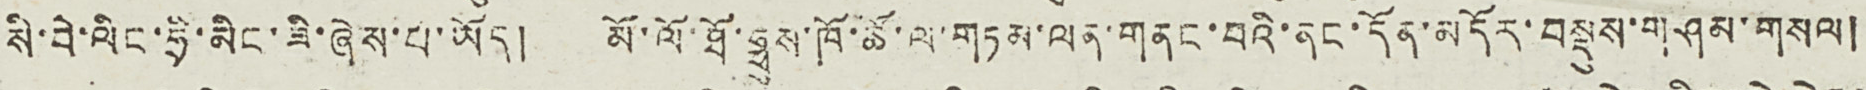སི་བི་ལིང་ཧྲི་མིང་ཟི་ཞེས་པ་ཡོད། མོ་ལོ་ཐོ་ཧྥུས་ཁོ་ཚོ་ལ་གཏམ་ལན་གནང་བའི་ནང་དོན་མདོར་བསྡུས་གཤམ་གསལ།
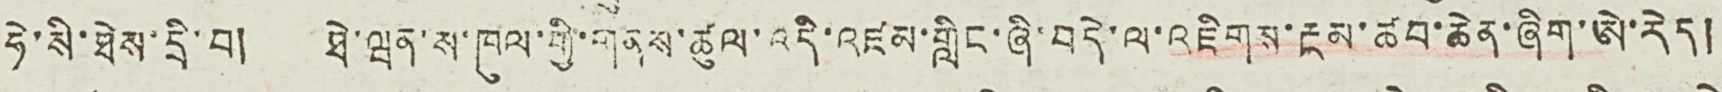ཧེ་སི་ཐེས་དྲི་བ། ཐེ་ཝན་ས་ཁུལ་གྱི་གནས་ཚུལ་འདི་འཛམ་གླིང་ཞི་བདེ་ལ་འཇིགས་རྔམ་ཚབ་ཆེན་ཞིག་ཨེ་རེད།
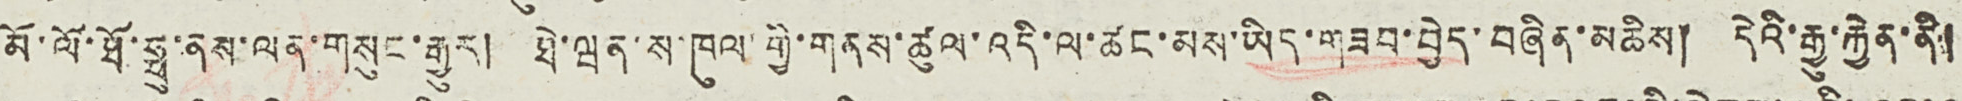མོ་ལོ་ཐོ་ཧྥུ་ནས་ལན་གསུང་རྒྱུར། ཐེ་ཝན་ས་ཁུལ་གྱི་གནས་ཚུལ་འདི་ལ་ཚང་མས་ཡིད་གཟབ་བྱེད་བཞིན་མཆིས། དེའི་རྒྱུ་རྐྱེན་ནི།
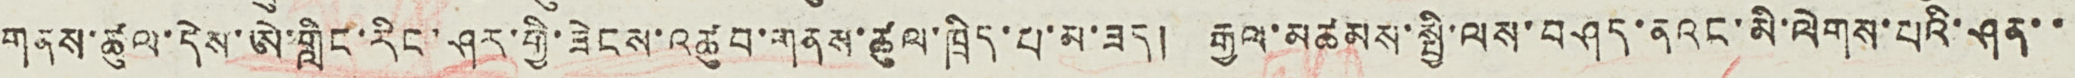གནས་ཚུལ་དེས་ཨེ་གླིང་རིང་ཤར་གྱི་ཟེངས་འཚུབ་གནས་ཚུལ་ཁྲིད་པ་མ་ཟད། རྒྱལ་མཚམས་སྤྱི་ལས་བཤད་ནའང་མི་ལེགས་པའི་ཤན་་
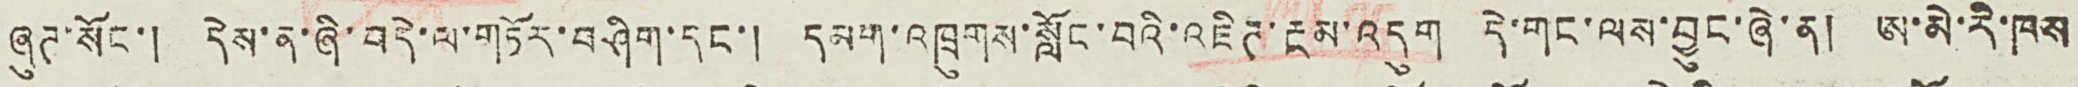ཞུཊ་སོང་། དེས་ན་ཞི་བདེ་ལ་གཏོར་བཤིག་དང་། དམག་འཁྲུགས་སློང་བའི་འཇིཊ་རྔམ་འདུག དེ་གང་ལས་བྱུང་ཞེ་ན། ཨ་མེ་རི་ཁས
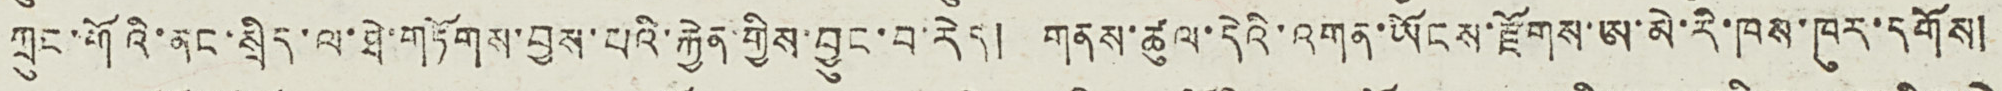ཀྲུང་གོའི་ནང་སྲིད་ལ་ཐེ་གཏོགས་བྱས་པའི་རྐྱེན་གྱིས་བྱུང་བ་རེད། གནས་ཚུལ་དེའི་འགན་ཡོངས་རྫོགས་ཨ་མེ་རི་ཁས་ཁུར་དགོས།
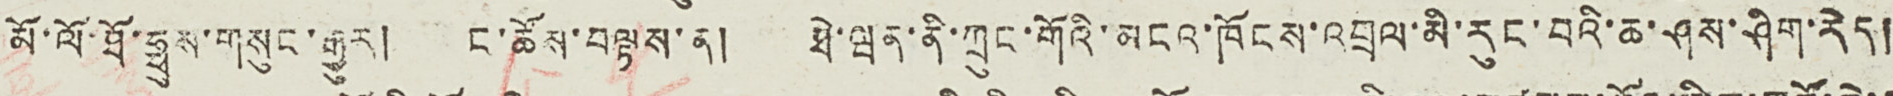མོ་ལོ་ཐོ་ཧྥུས་གསུང་རྒྱུར། ང་ཚོས་བལྟས་ན། ཐེ་ཝན་ནི་ཀྲུང་གོའི་མངའ་ཁོངས་འབྲལ་མི་རུང་བའི་ཆ་ཤས་ཤིག་རེད།
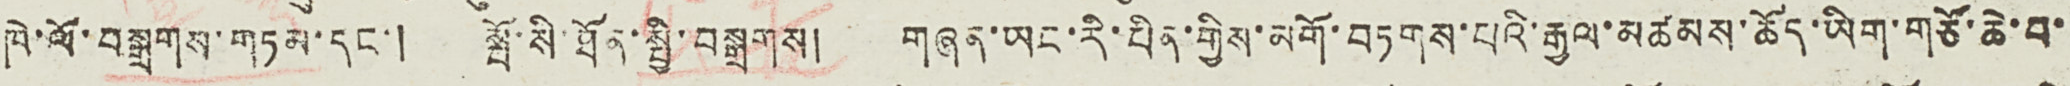ཁེ་ལོ་བསྒྲགས་གཏམ་དང་། སྤོ་སི་ཐོན་སྤྱི་བསྒྲགས། གཞན་ཡང་རི་པིན་གྱིས་མགོ་བཏགས་པའི་རྒྱལ་མཚམས་ཆོད་ཡིག་གཙོ་ཆེ་བ་
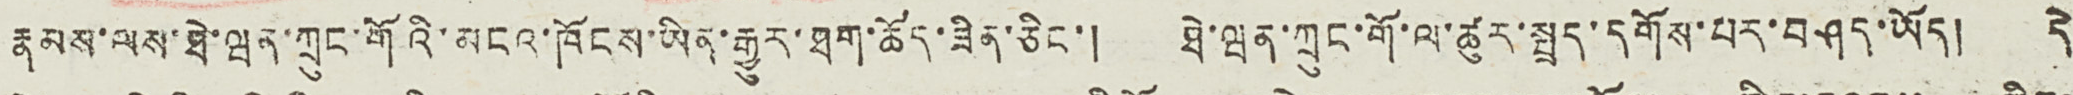རྣམས་ལས་ཐེ་ཝན་ཀྲུང་གོའི་མངའ་ཁོངས་ཡིན་རྒྱུར་ཐག་ཆོད་ཟིན་ཅིང་། ཐེ་ཝན་ཀྲུང་གོ་ལ་ཚུལ་སྤྲད་དགོས་པར་བཤད་ཡོད། དེ
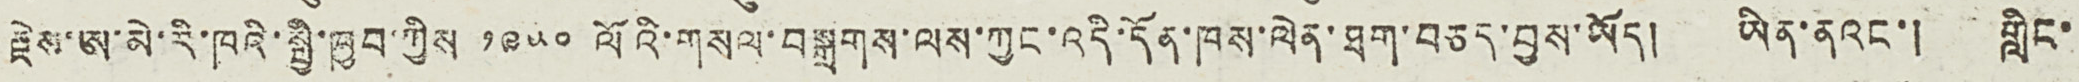རྗེས་ཨ་མེ་རི་ཁའི་སྤྱི་ཁྱབ་ཀྱིས་ ༡༩༥༠ ལོའི་གསལ་བསྒྲགས་ལས་ཀྱང་འདི་དོན་ཁས་ལེན་ཐག་བཅད་བྱས་ཡོད། ཡིན་ནའང་། གླིང་
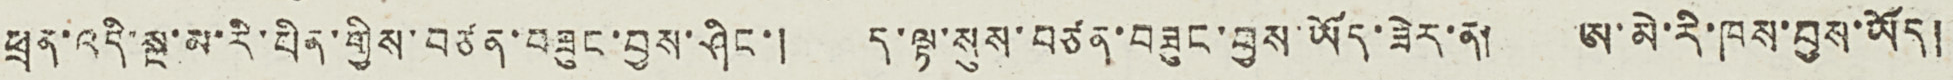ཕྲན་འདི་སྔ་མ་རི་པིན་གྱིས་བཙན་བཟུང་བྱས་ཤིང་། ད་ལྟ་སུས་བཙན་བཟུང་བྱས་ཡོད་ཟེར་ན། ཨ་མེ་རི་ཁས་བྱས་ཡོད།
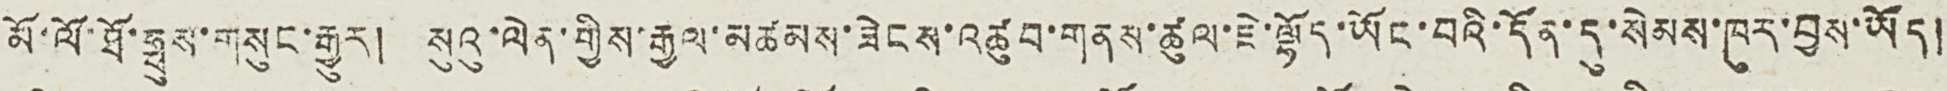མོ་ལོ་ཐོ་ཧྥུས་གསུང་རྒྱུར། སུའུ་ལེན་གྱིས་རྒྱལ་མཚམས་ཟེངས་འཚུབ་གནས་ཚུལ་ཇེ་ལྷོད་ཡོང་བའི་དོན་དུ་སེམས་ཁུར་བྱས་ཡོད།
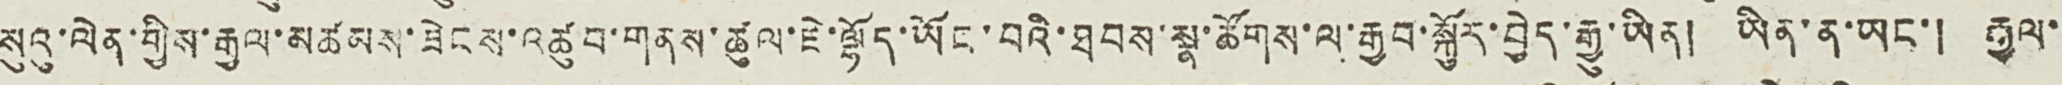སུའུ་ལེན་གྱིས་རྒྱལ་མཚམས་ཟེངས་འཚུབ་གནས་ཚུལ་ཇེ་ལྷོད་ཡོང་བའི་ཐབས་སྣ་ཚོགས་ལ་རྒྱབ་སྐྱོར་བྱེད་རྒྱུ་ཡིན། ཡིན་ན་ཡང་། རྒྱལ་
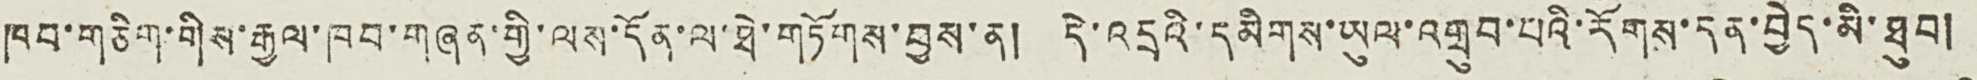ཁབ་གཅིག་གས་རྒྱལ་ཁབ་གཞན་གྱི་ལས་དོན་ལ་ཐེ་གཏོགས་བྱས་ན། དེ་འདྲའི་དམིགས་ཡུལ་འགྲུབ་པའི་རོགས་དན་བྱེད་མི་ཐུབ།
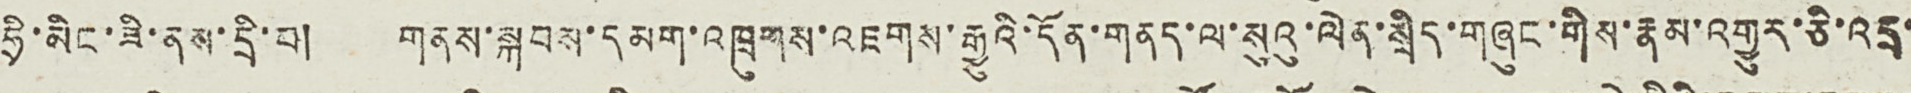ཧྲི་མིང་ཟི་ནས་དྲི་བ། གནས་སྐབས་དམག་འཁྲུགས་འཇགས་རྒྱུའི་དོན་གནད་ལ་སུའུ་ལེན་སྲིད་གཞུང་གིས་རྣམ་འགྱུར་ཅི་འདྲ་
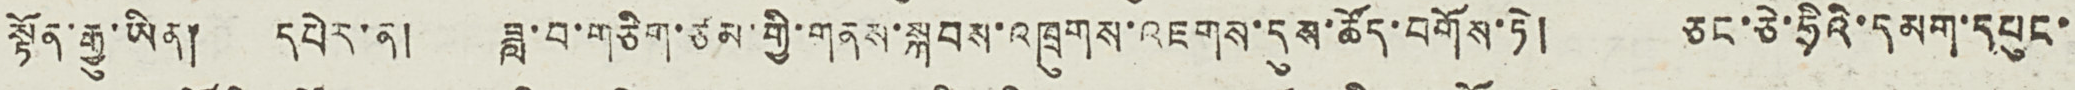སྟོན་རྒྱུ་ཡིན། དཔེར་ན། ཟླ་བ་གཅིག་ཙམ་གྱི་གནས་སྐབས་འཁྲུགས་འཇགས་དུས་ཚོད་བགོས་ཏེ། ཅང་ཅེ་ཧྲིའི་དམག་དཔུང་
